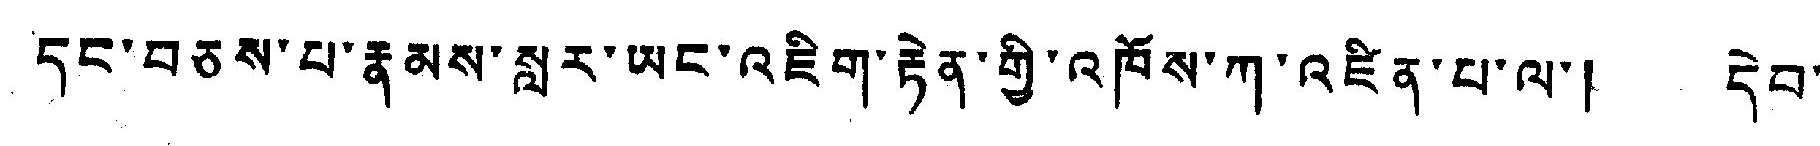དང་བཅས་པ་རྣམས་སླར་ཡང་འཇིག་རྟེན་གྱི་འཁོས་ཀ་འཛིན་པ་ལ་། དེབ་་
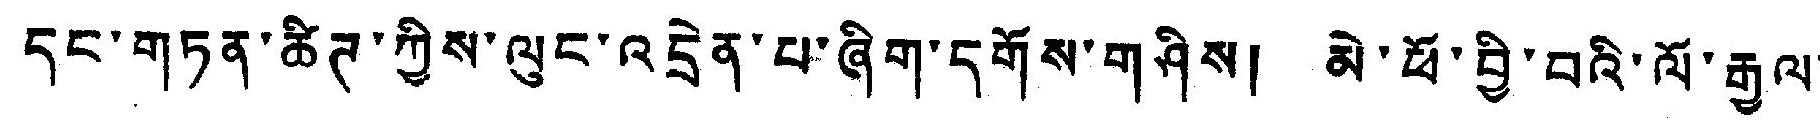དང་གཏན་ཚིཊ་ཀྱིས་ལུང་འདྲེན་པ་ཞིག་དགོས་གཤིས་། མེ་ཕོ་བྱི་བའི་ལོ་རྒྱལ་
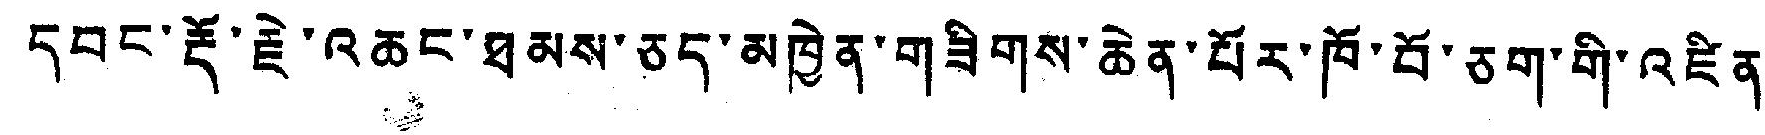དབང་རྡོ་རྗེ་འཆང་ཐམས་ཅད་མཁྱེན་གཟིགས་ཆེན་པོར་ཁོ་བོ་ཅག་གི་འཛིན་་
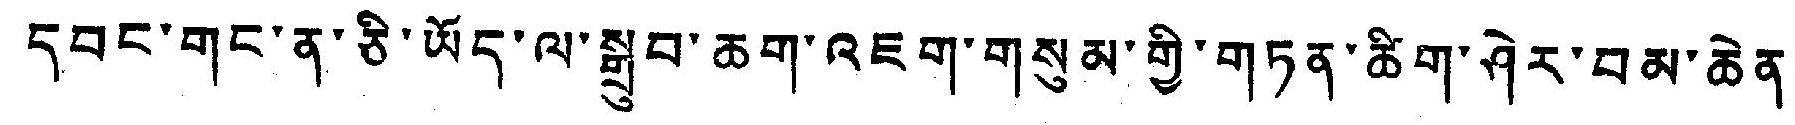དབང་གང་ན་ཅི་ཡོད་ལ་སྒྲུབ་ཆག་འཇག་གསུམ་གྱི་གཏན་ཚིག་ཤེར་བམ་ཆེན་
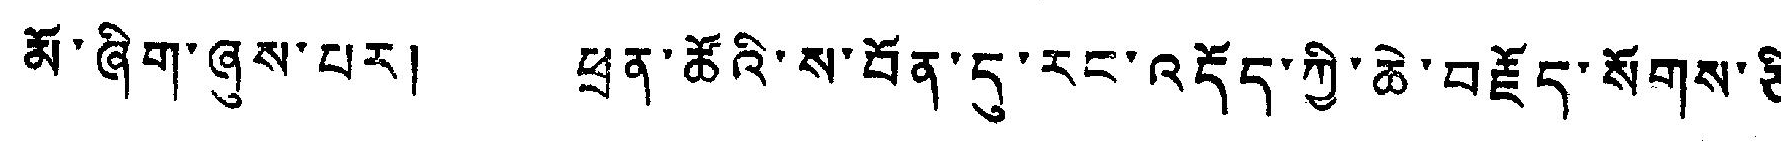མོ་ཞིག་ཞུས་པར། ཕྲན་ཚོའི་ས་བོན་དུ་རང་འདོད་ཀྱི་ཆེ་བརྗོད་སོགས་ཅི་
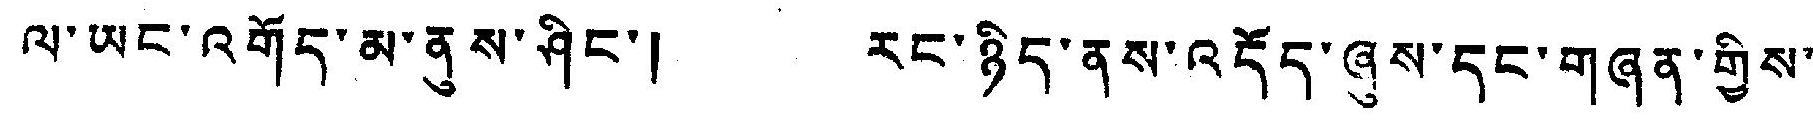ལ་ཡང་འགོད་མ་ནུས་ཤིང་། རང་ཉིད་ནས་འདོད་ཞུས་དང་གཞན་གྱིས་
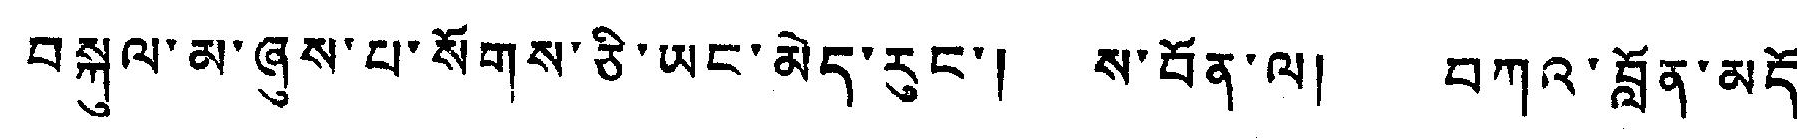བསྐུལ་མ་ཞུས་པ་སོགས་ཅི་ཡང་མེད་རུང་། ས་བོན་ལ། བཀའ་བློན་མདོ་
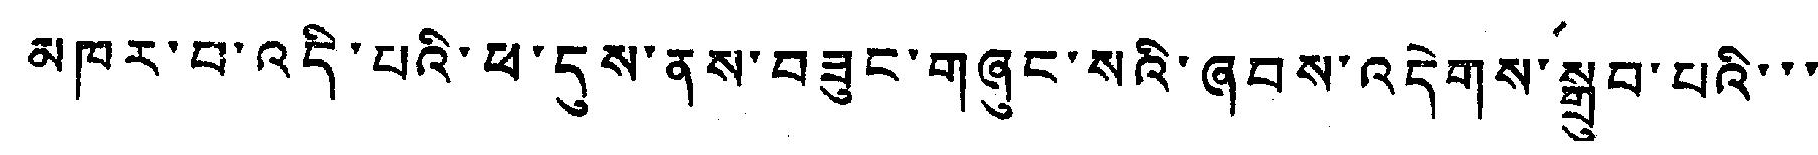མཁར་བ་འདི་པའི་ཕ་དུས་ནས་བཟུང་གཞུང་སའི་ཞབས་འདེགས་སྒྲུབ་པའི་་་
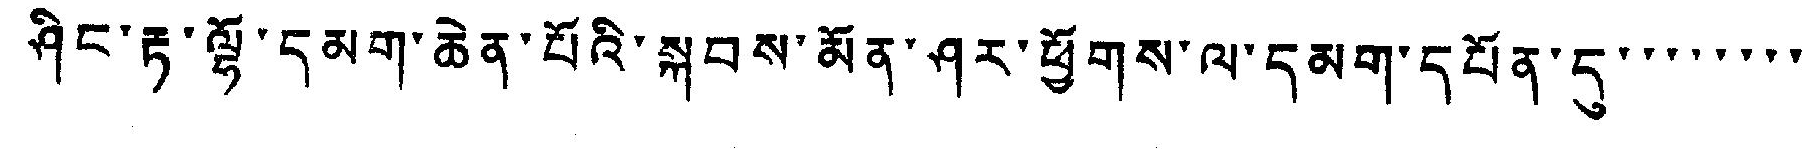ཤིང་རྟ་ལྷོ་དམག་ཆེན་པོའི་སྐབས་མོན་ཤར་ཕྱོགས་ལ་དམག་དཔོན་དུ་་་་་་་་
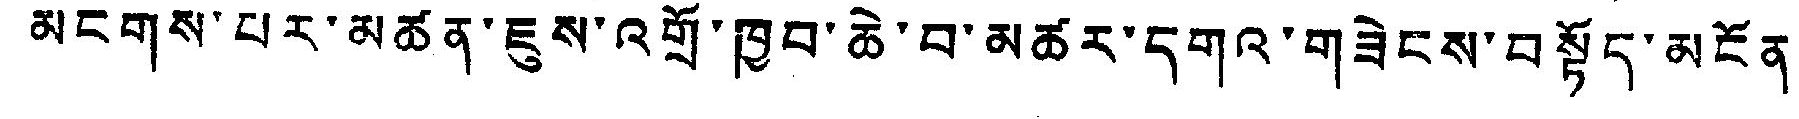མངགས་པར་མཚན་ཇུས་འགྲོ་ཁྱབ་ཆེ་བ་མཚར་དགའ་གཟེངས་བསྟོད་མངོན་
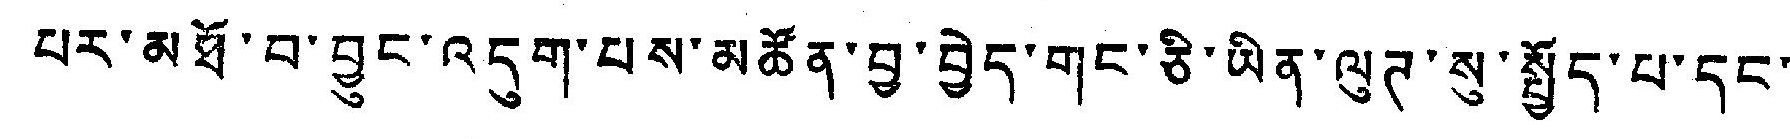པར་མཐོ་བ་བྱུང་འདུག་པས་མཚོན་བྱ་བྱེད་གང་ཅི་ཡིན་ལུཊ་སུ་སྤྱོད་པ་དང་།
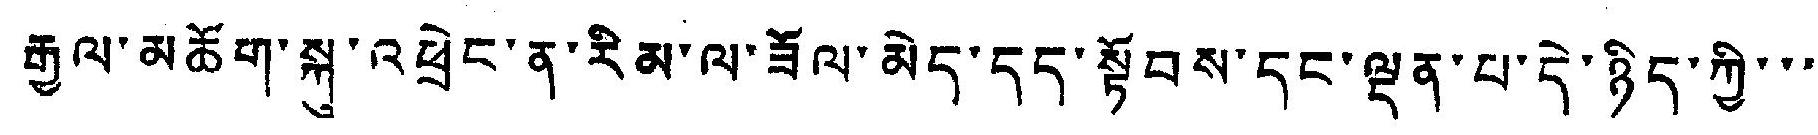རྒྱལ་མཆོག་སྐུ་འཕྲེང་ན་རིམ་ལ་ཟོལ་མེད་དང་སྟོབས་དང་ལྡན་པ་དེ་ཉིད་ཀྱི་་་
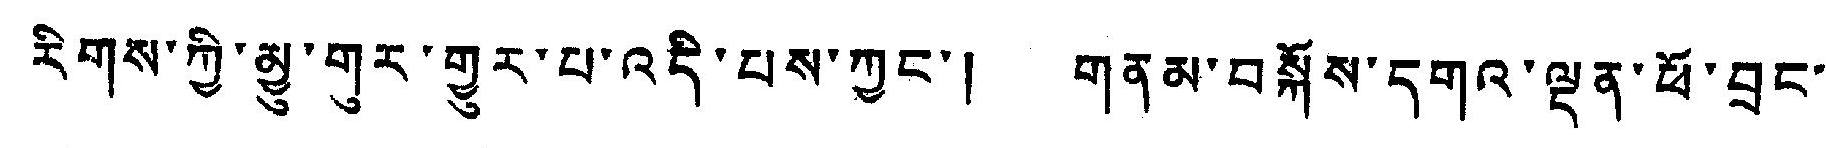རིགས་ཀྱི་མྱུ་གུར་གྱུར་པ་འདི་པས་ཀྱང་། གནམ་བསྐོས་དགའ་ལྡན་ཕོ་བྲང་
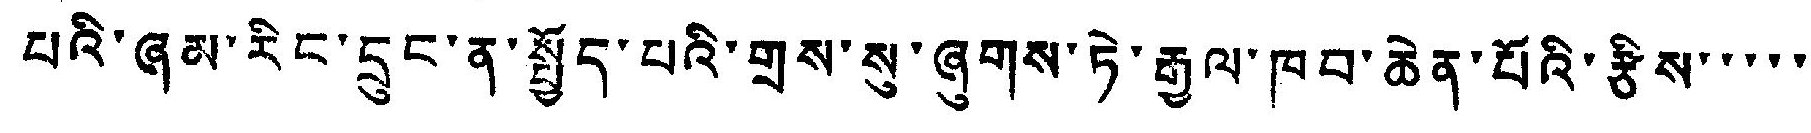པའི་ཞམ་རིང་དྲུང་ན་སྤྱོད་པའི་གྲས་སུ་ཞུགས་ཏེ་རྒྱལ་ཁབ་ཆེན་པོའི་རྩིས་་་་་
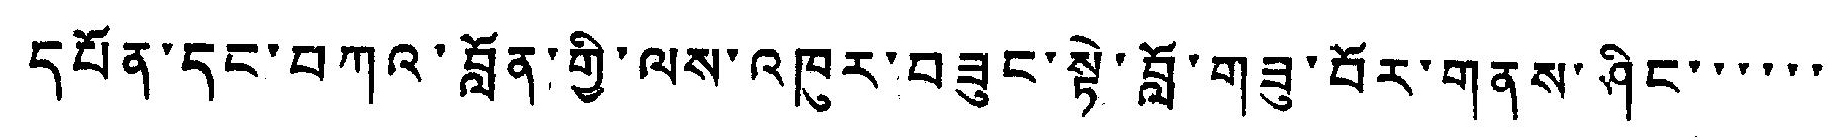དཔོན་དང་བཀའ་བློན་གྱི་ལས་འཁུར་བཟུང་སྟེ་བློ་གཟུ་བོར་གནས་ཤིང་་་་་་
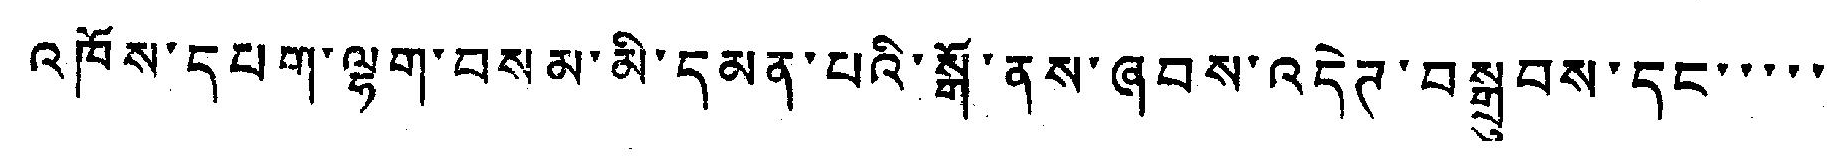འཁོས་དཔག་ལྷག་བསམ་མི་དམན་པའི་སྒོ་ནས་ཞབས་འདེཊ་བསྒྲུབས་དང་་་་་
